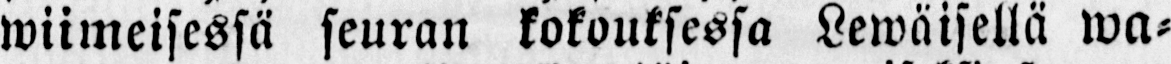wiimeisessä seuran kokouksessa Lewäisellä wa-
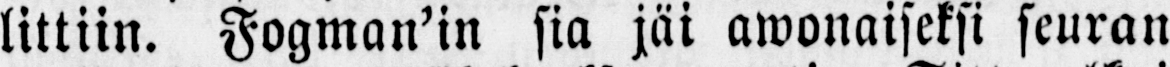littiin. Fogman’in sia jäi awonaiseksi seuran
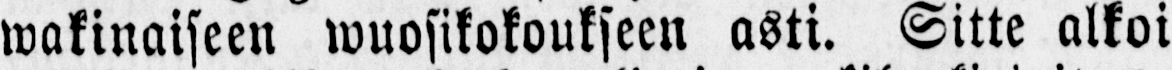wakinaiseen wuosikokoukseen asti. Sitte alkoi
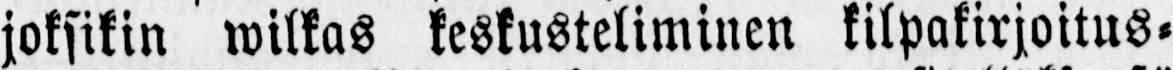joksikin wilkas keskusteliminen kilpakirjoitus-
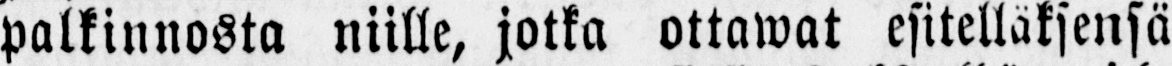palkinnosta niille, jotka ottawat esitelläksensä
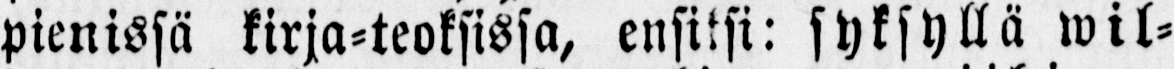pienissä kirja-teoksissa, ensiksi: syksyllä wil-
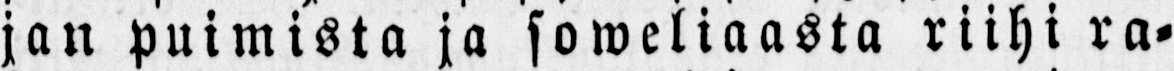jan puimista ja soweliaasta riihi ra-
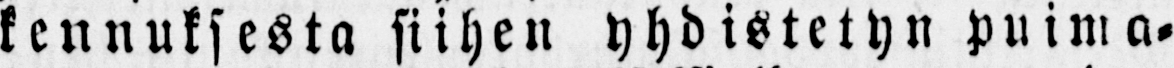kennuksesta siihen yhdistetyn puima,
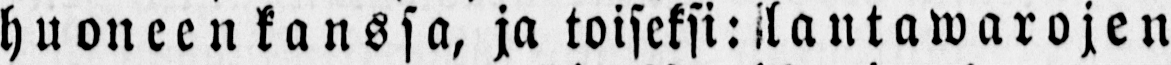huoneen kanssa, ja toiseksi: lantawarojen
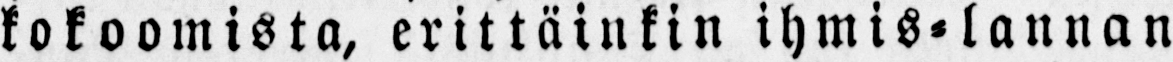kokoomista, erittäinkin ihmis-lannan
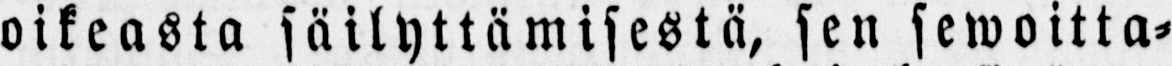oikeasta säilyttämisestä, sen sewoitta-
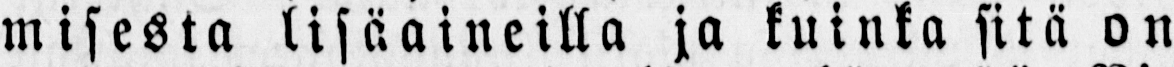misesta lisäaineilla ja kuinka sitä on
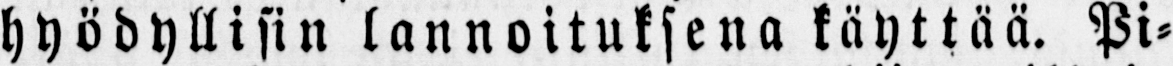hyödyllisin lannoituksena käyttää. Pi-
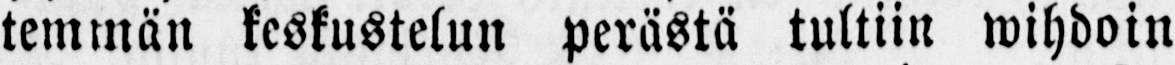temmän keskustelun perästä tultiin wihdoin
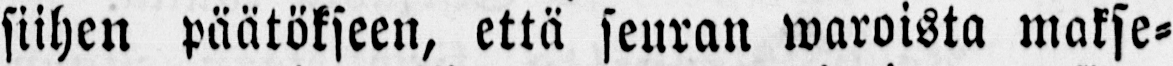siihen päätökseen, että seuran waroista makse-
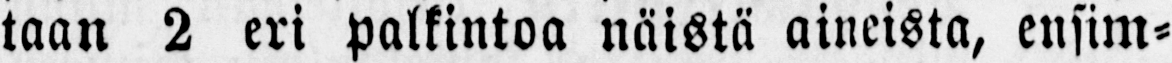taan 2 eri palkintoa näistä aineista, ensim-
